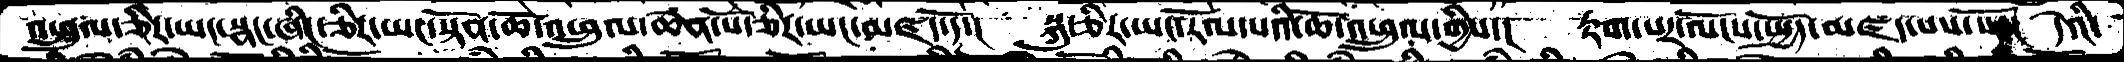འཕྲུལ་ཅིར་ཡང་སྣང་ཞིང་ཅིར་ཡང་སྟོན་ཆོ་འཕྲུལ་ཆེན་པོ་ཅིར་་ཡང་མཛད་དོ་།  སྐུ་ཅིར་ཡང་རོལ་པའི་ཆོ་འཕྲུལ་གྱིས་།  རྟག་པར་ལོངས་སྤྱོད་མཛད་པས་སོ་།། དེའི་
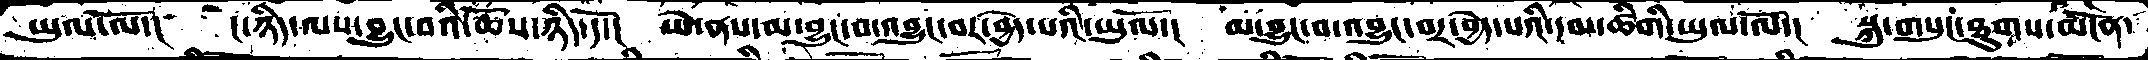ཡུལ་ལོ་།  ང་ཉིད་ལས་བྱུང་བའི་ཆོས་ཉིད་དོ་།  ཡེ་ནས་མ་བྱུང་བ་འབྱུང་བར་བྱེད་པའི་ཡུལོ་།  མ་བྱུང་བ་འབྱུང་བར་བྱེད་པའི་དམ་ཚིགི་ཡུལ་ལོ་།  སྐུ་གསུང་ཐུགས་མངོན་
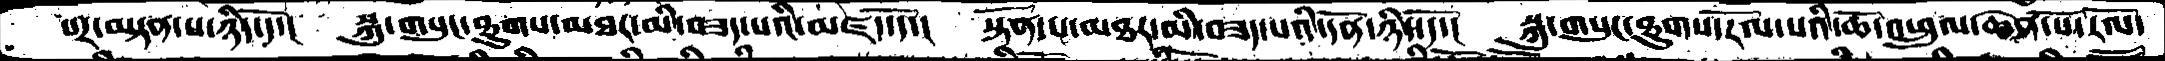པར་བསྟན་པ་ཉིད་དོ་། སྐུ་གསུང་ཐུགས་མཐར་མི་བཟད་པའི་མཛད་དོ་། སྟོན་པ་མཐར་མི་བཟད་པའི་དོན་ཉིད་དོ་། སྐུ་གསུང་ཐུགས་རོལ་པའི་ཆོ་འཕྲུལ་ཆེན་པོ་རོལ་
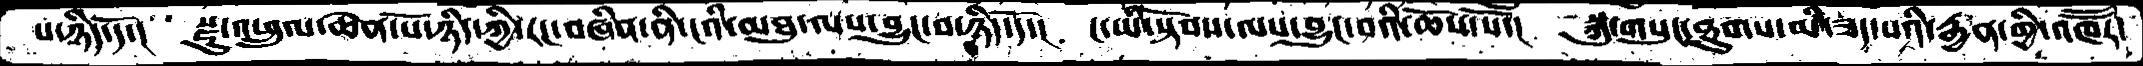པ་ཉིད་དོ་།  སྫུ་འཕྲུལ་ཆེན་པོ་ཉིད་ཀྱི་རང་བཞིན་ནི་ངའི་མཐུ་ལས་བྱུང་བ་ཉིད་དོ་།  ང་ཡི་སྟོབས་ལས་བྱུང་བའི་ཆོས་སོ་།  སྐུ་གསུང་ཐུགས་མི་ཟད་པའི་རྒྱན་གྱི་འཁཽར་
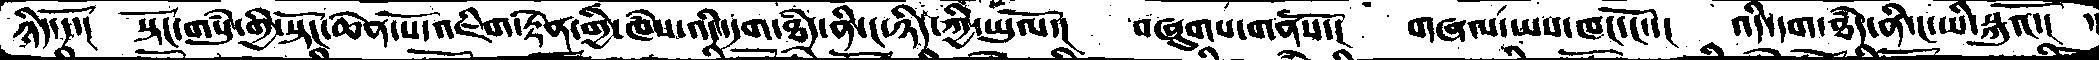ཉིད་དོ་།  སྟོང་གསུཾ་གྱི་སྟོང་ཆེན་པོ་འཇིག་རྟེན་གྱི་ཁཾས་འདི་དག་ཐཾད་ནི་ང་ཉིད་ཀྱི་ཡུལོ་།  བཞུགས་གནསོ་།  གཞལ་ཡས་ཁང་ངོ་།  འདི་དག་ཐཾད་ནི་ང་ཡི་སྐུའོ་། ་
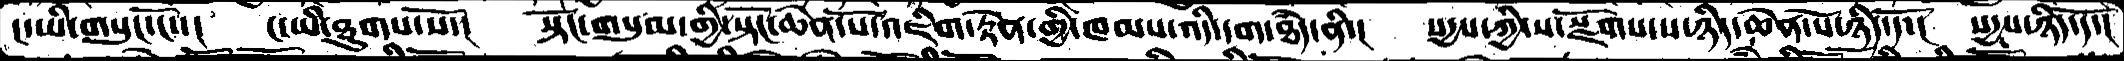ང་ཡི་གསུང་ངོ་་།    ང་ཡི་ཐུགས་སོ་།   སྟོང་གསུམ་གྱི་སྟོང་ཆེན་པོ་འཇིག་རྟེན་གྱི་ཁམས་འདི་དག་ཐཾད་ནི་།    སདྱས་ཀྱི་ས་སྫོགས་པ་ཉིད་ཆེན་པོ་ཉིད་དོ་།   སདྱས་ཉིད་དོ་།
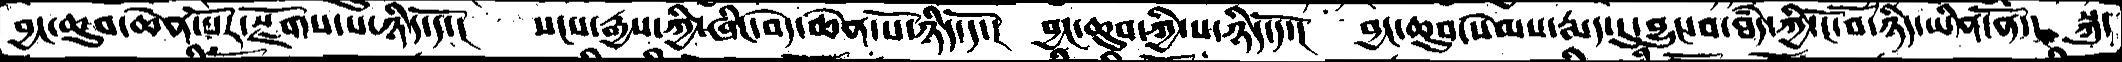བྱང་ཆུབ་ཆེན་པོར་སྫོགས་པ་ཉིད་དོ་།   སངས་རྒྱས་ཀྱི་ཞིང་བདེ་ཆེན་པོ་ཉིད་དོ་།  བྱང་ཆུབ་ཀྱི་ས་ཉིད་དོ་།  བྱང་ཆུབ་སེམས་རྨད་དུ་བྱུང་བ་ཐཾད་ཀྱི་ངོོ་བོ་ཉིད་ཡིན་ནོ་།   སྐུ་
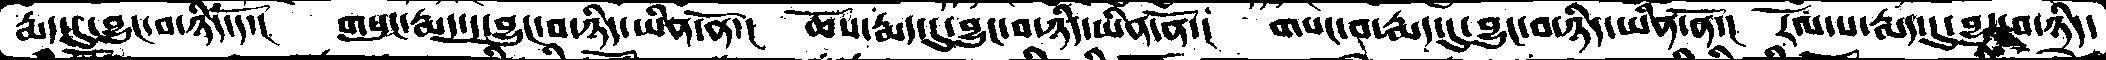རྨད་དུ་བྱུང་བ་ཉིད་དོ་།    གསུང་རྨད་དུ་བྱུང་བ་ཉིད་ཡིན་ནོ་།   ཆོས་རྨད་དུ་བྱུང་བ་ཉིད་ཡིན་ནོ་།།   གསང་བ་རྨད་དུ་བྱུང་བ་ཉིད་ཡིན་ནོ་།  རོལ་པ་རྨད་དུ་བྱུང་བ་ཉིད་
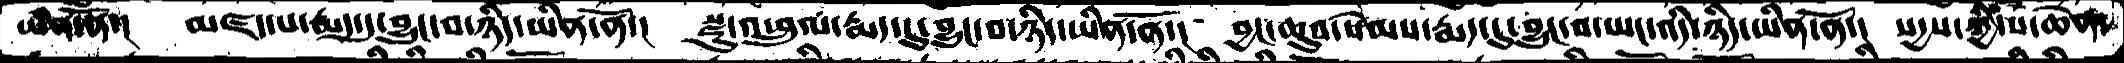ཡིན་ནོ་།   མཛད་པ་རྨད་དུ་བྱུང་བ་ཉིད་ཡིན་ནོ་།   སྫུ་འཕྲུལ་རྨད་དུ་བྱུང་བ་ཉིད་ཡིན་ནོ་།   བྱང་ཆུབ་སེམས་རྨད་དུ་བྱུང་བ་ཡང་འདི་ཉིད་ཡིན་ནོ་།  སདྱས་ཀྱི་ས་ཆེན་
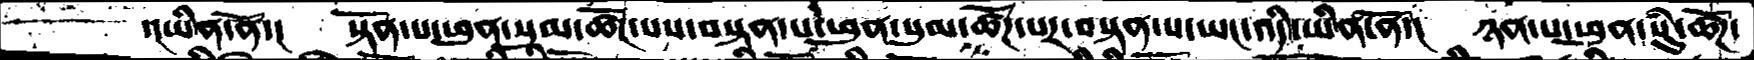་།ཡིན་ནོ་།   སྟོན་པ་ཕུན་སུམ་ཚོཌ་པས་བསྟན་པ་ཕུན་སུམ་ཚོཌ་པར་བསྟན་པ་ཡང་འདི་ཡིན་ནོ་།   ཉན་པ་ཕུན་སུཾ་ཚོཌ་
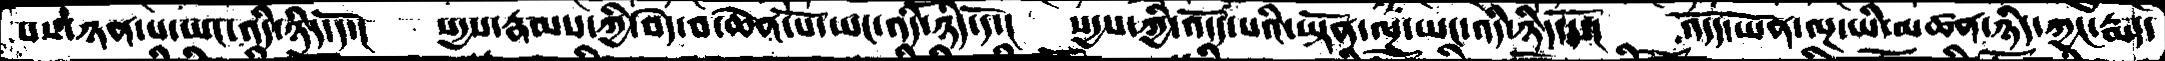པས་ཉན་པ་ཡང་འདི་ཉིད་དོ་།  སདྱས་རྣམས་ཀྱི་བདེ་བ་ཆེན་པོ་ཡང་འདི་ཉིད་དོ་།  སདྱས་ཀྱི་འདོད་པའི་ཡྟོན་ལྔ་ཡང་འདི་ཉིད་དོ་།  འདོད་ཡོན་ལྔ་ཡི་མཚན་ཉིད་ཀྱང་རྨད་
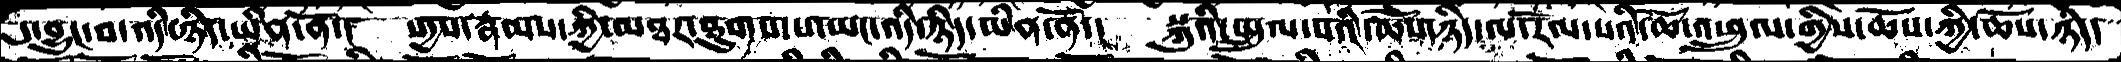དུ་བྱུང་བ་འདི་ཉིད་ཡིན་ནོ་།  སདྱས་རྣམས་ཀྱི་མཐར་ཐུགས་པ་ཡང་འདི་ཉིད་ཡིན་ནོ་།  སྐུའི་སྤྲུལ་པའི་ཆོས་ཉིད་ལ་རོལ་པའི་ཆོ་འཕྲུལ་གྱིས་ཆོས་ཀྱི་ཆོས་ཉིད་
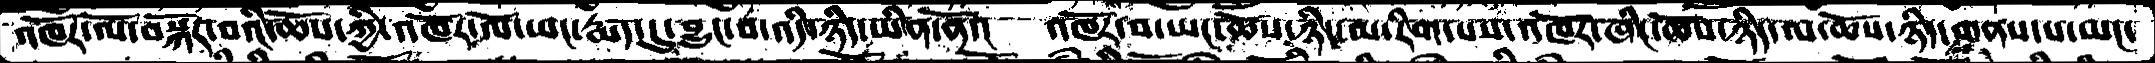འཁོར་ལོ་བསྐོར་བའི་ཆོས་ཀྱི་འཁོར་ལོ་ཡང་རྨད་དུ་བྱུང་བ་འདི་ཉིད་ཡིན་ནོ་།  འཁོར་བ་ཡང་ཆོས་ཉིད་མ་་རིག་པས་འཁོར་ཞིང་ཆོས་ཉིད་ལ་ཆོས་ཉིད་གནས་པ་ཡང་
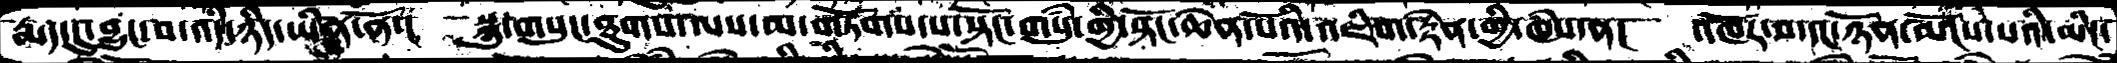རྨད་དུ་བྱུང་བ་འདི་ཉིད་ཡིན་ནོ་།  སྐུ་གསུང་ཐུགས་ལས་མ་གཏོགས་པ་སྟོང་གསུཾ་གྱི་སྟོང་ཆེན་པོའི་འཇིག་རྟེན་གྱི་ཁཾས་ན།  འཁོར་བ་དང་ཉིན་མོངས་པའི་མིང་
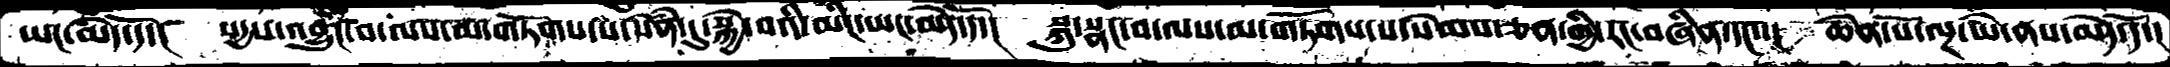ཡང་མེད་དོ་། སདྱས་འབྱུང་བ་ལས་མ་གཏོགས་པ་སེནཾ་དུ་སྐྱེ་བའི་མིང་ཡང་མེད་དོ་།  སྐུ་སྣང་བ་ལས་མ་གཏོགས་པ་སེམས་ཅན་གྱི་རང་བཞིན་དང་་།  ཆེན་པོ་ལྔ་ཡེ་ནས་མེད་དོ་།
